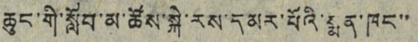ཆུང་གི་སློབ་མ་ཚོས་སྐྱེ་རས་དམར་པོའི་སྨན་ཁང་་
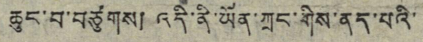ཆུང་བ་བཙུགས། འདི་ནི་ཡོན་ཀྲང་གིས་ནད་པའི་
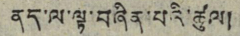ནད་ལ་ལྟ་བཞིན་པའི་ཚུལ།
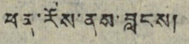ཕན་རོས་ནས་བླངས།
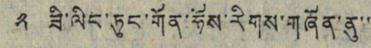༢ ཟི་ལིང་ཏུང་གོན་ཧོས་རིགས་གཞོན་ནུ་་
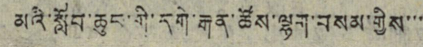མའི་སློབ་ཆུང་གི་དགེ་རྒན་ཚོས་ལྷག་བསམ་གྱིས་་་
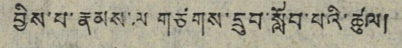བྱིས་པ་རྣམས་ལ གཙགས་དྲུབ་སློབ་པའི་ཚུལ།
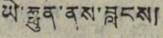ཡི་ཧྥུན་ནས་བླངས།
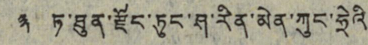༣ ཏ་ཐུན་རྫོང་ཏུང་ཤ་རིན་མེན་ཀུང་ཧྲེའི་
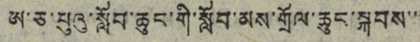ཨ་ཅ་པུའུ་སློབ་ཆུང་གི་སློབ་མས་གྲོལ་ཆུང་སྐབས་་་
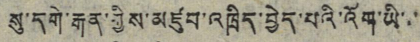སུ་དགེ་རྒན་གྱིས་མཛུབ་འཁྲིད་བྱེད་པའི་འོག་ཡི་་་
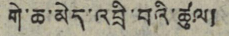གེ་ཆ་མེད་འབྲི་བའི་ཚུལ།
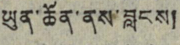ཡུན་ཆོན་ནས་བླངས།
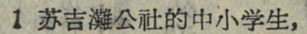1 苏吉灘公社的中小学生，
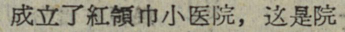成立了紅領巾小医院，这是院
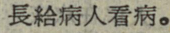長給病人看病。
